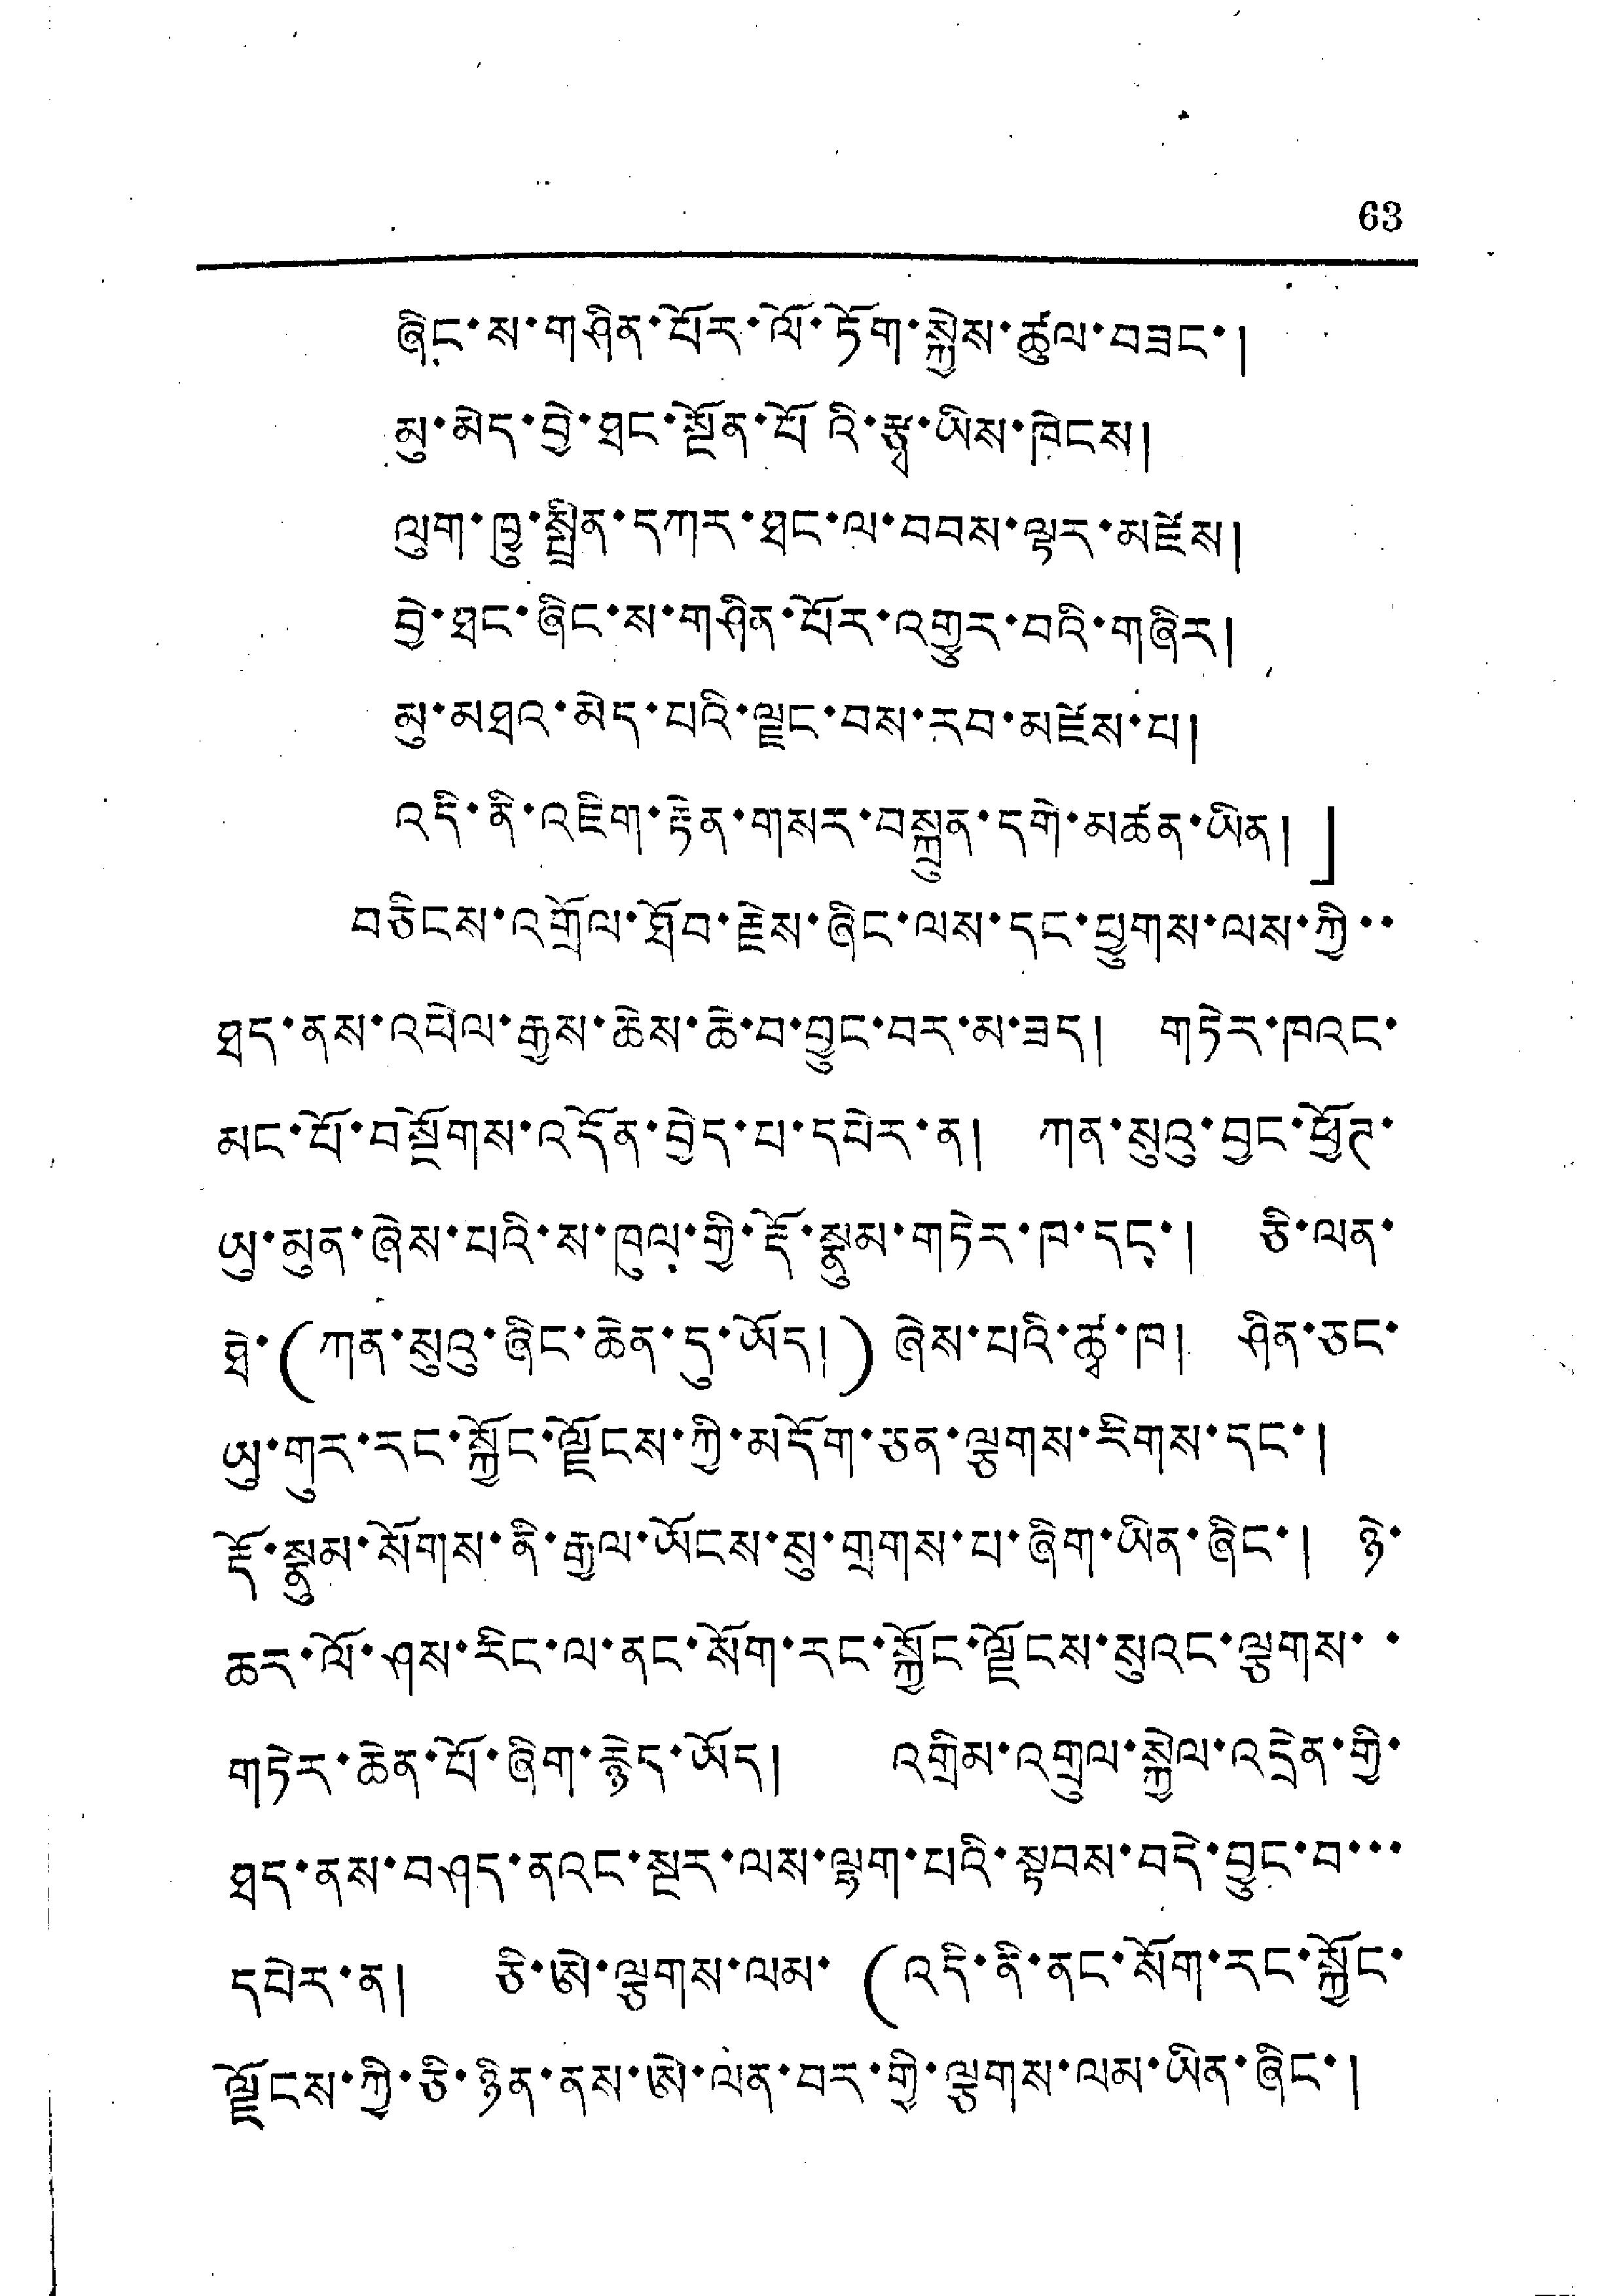63
ཞིང་ས་གཤིན་པོར་ལོ་ཏོག་སྐྱེས་ཚུལ་བཟང་།
མུ་མེད་བྱེ་ཐང་སྔོན་པོའི་རྩྭ་ཡིས་ཁེངས།
ལུག་ཁྱུ་སྤྲིན་དཀར་ཐང་ལ་བབས་ལྟར་མཛེས།
བྱེ་ཐང་ཞིང་ས་གཤིན་པོར་འགྱུར་བའི་གཞིར།
མུ་མཐའ་མེད་པའི་ལྗང་བས་རབ་མཛེས་པ།
འདི་ནི་འཇིག་རྟེན་གསར་བསྐྲུན་དགེ་མཚན་ཡིན།」
བཅིངས་འགྲོལ་ཐོབ་རྗེས་ཞིང་ལས་དང་ཕྱུགས་ལས་ཀྱི་་
ཐད་ནས་འཕེལ་རྒྱས་ཆེས་ཆེ་བ་བྱུང་བར་མ་ཟད། གཏེར་ཁའང་
མང་པོ་བསྔོགས་འདོན་བྱེད་པ་དཔེར་ན། ཀན་སུའུ་བྱང་ཕྱོཊ་
ཡུ་མུན་ཞེས་པའི་ས་ཁུལ་གྱི་རྡོ་སྣུམ་གཏེར་ཁ་དང་། ཅི་ལན་
ཐེ་(ཀན་སུའུ་ཞིང་ཆེན་དུ་ཡོད།)ཞེས་པའི་ཚྭ་ཁ། ཤིན་ཅང་
ཡུ་གུར་རང་སྐྱོང་ལྗོངས་ཀྱི་མདོག་ཅན་ལྕགས་རིགས་དང་།
རྡོ་སྣུམ་སོགས་ནི་རྒྱལ་ཡོངས་སུ་གྲགས་པ་ཞིག་ཡིན་ཞིང་། ཉེ་
ཆར་ལོ་ཤས་རིང་ལ་ནང་སོག་རང་སྐྱོང་ལྗོངས་སུའང་ལྕགས་་་
གཏེར་ཆེན་པོ་ཞིག་རྙེད་ཡོད། འགྲིམ་འགྲུལ་སྐྱེལ་འདྲེན་གྱི་
ཐད་ནས་བཤད་ནའང་སྔར་ལས་ལྷག་པའི་སྟབས་བདེ་བྱུང་བ་་་
དཔེར་ན། ཅི་ཨེ་ལྕགས་ལམ་ (འདི་ནི་ནང་སོག་རང་སྐྱོང་
ལྗོངས་ཀྱི་ཅི་ཉིན་ནས་ཨེ་ལན་བར་གྱི་ལྕགས་ལམ་ཡིན་ཞིང་།
